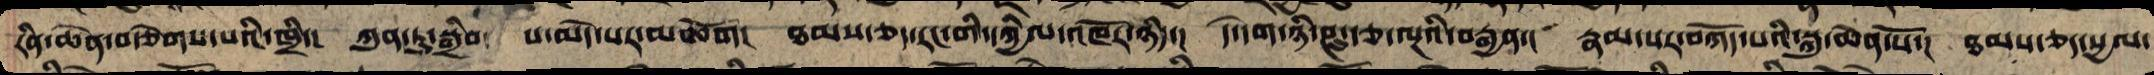རིན་ཆེན་བརྩེགས་པའི་ཁྲི་། ཀུན་ཏུ་སྒྲིབ་པ་མེད་པའི་མཆོག། ཐམས་ཅད་རང་གི་དཀྱིལ་འཁོར་ཉིད་། དེ་དག་ཉི་ཤུ་རྩ་ལྔའི་བརྒྱན་། རྣམ་པར་བཀོད་པའི་སྐུ་ཆེན་པོ་། ཐམས་ཅད་སྱལ་
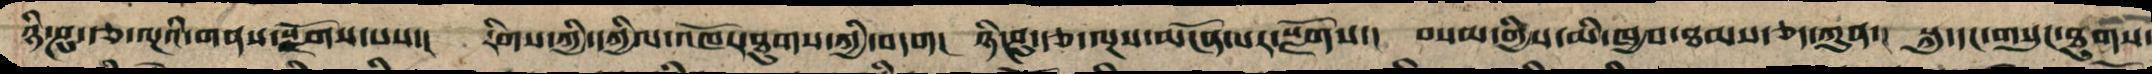ཉི་ཤུ་རྩ་ལྔའི་གནས་སྫོགས་པས་། རིགས་ཀྱི་དཀྱིལ་འཁོར་ཐུགས་ཀྱི་བདག། ཉི་ཤུ་རྩ་ལྔས་མངོན་པར་སྫོགས་། བསམ་གྱིས་མི་ཁྱབ་ཐམས་ཅད་ཀུན་། སྐུ་དང་གསུང་ཐུགས་
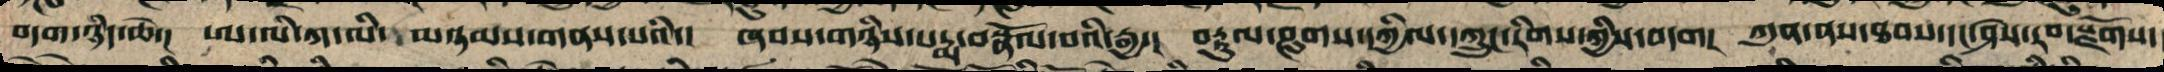བདག་ཉིད་ཆེ་། ཨ་ལི་ཀ་ལི་   མཉམས་གནས་པའི་། ཞབས་གཉིས་པདྨ་བསྣོལ་བའི་རྒྱ་། བརྟུལ་ཤུགས་དཀྱིལ་དཀྲུང་རིགས་ཀྱིས་བདག། ཀུན་ནས་ཐབས་དང་ཤེས་རབ་སྫོགས་
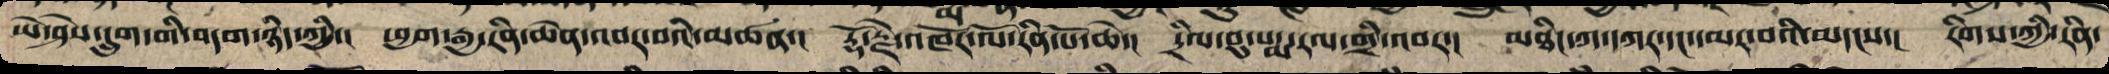ཡེ་ཤེས་དྲུག་གི་བདག་ཉིད་ཀྱི་། ཕྱག་རྒྱ་རིན་ཆེན་འབར་བའི་མཚན་། རྡོ་རྗེ་འཁོར་ལོ་རིན་པོ་ཆེ་། དྲིལ་བུ་པདྨ་རལ་གྲི་འབར་། མཐིང་ཀ་དཀར་དང་དམར་བའི་མདངས་། རིགས་ཀྱི་རིན་
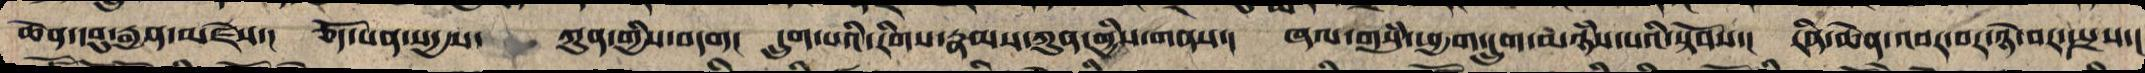ཆེན་དབུ་རྒྱན་མཛེས་། ཅོད་པན་སདྱས་  ཀུན་གྱིས་བདག།  དྲུག་པའི་རིགས་རྣམས་ཀུན་གྱི་གནས་། ཞལ་གསུཾ་ཕྱག་དྲུག་མཉཾས་པའི་སྟོབས་། རིན་ཆེན་འབར་བར་ཉེ་བར་སྤྲས་།
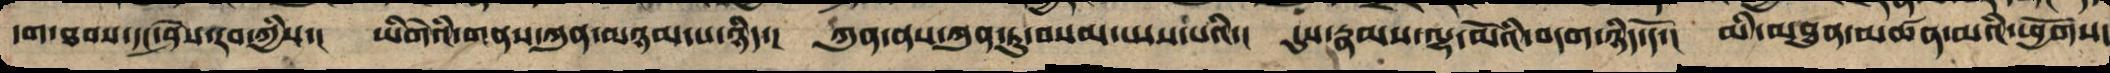དག་ཐབས་དང་ཤེས་རབ་ཀྱིས་། ཡི་གེའི་གནས་ཀུན་མཉམ་པ་ཉིད་། ཀུན་ནས་ཀུན་ཏུ་བསམ་ཡས་པའི་། དུས་རྣམས་ལྷ་མོའི་བདག་ཉིད་དོ་། མི་མཐུན་མཚན་མའི་ཕྱོགས་
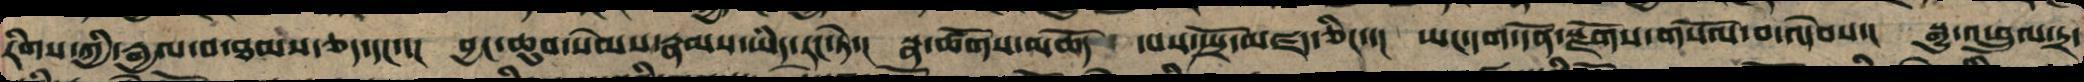རིགས་ཀྱི་རྒྱལ་བ་ཐམས་ཅད་དང་་། བྱང་ཆུབ་སེམས་རྣམས་ཡི་རང་ཏེ་། སྣ་ཚོགས་མཆོད་པས་སྤྲོ་མཛད་ཅིང་་། ཡང་དག་དོན་སྫོགས་གསོལ་བ་འདེབས་། སྒྱུ་འཕྲུལ་དྲ་
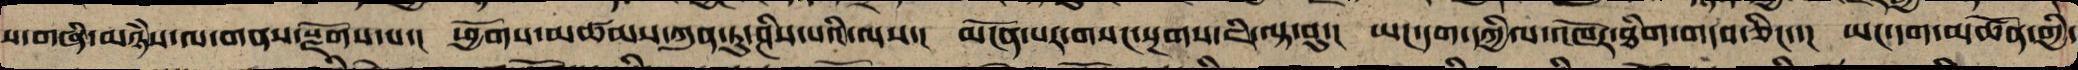ས་གཞི་མཉཾས་ལ་གནས་སྫོགས་པ་། ཕྱོགས་མཚམས་ཀུན་ཏུ་ཤིས་པའི་ལས་། མངོན་པར་གསང་སྔགས་ཇི་ལྟ་བུ་། ཡང་དག་དཀྱིལ་འཁོར་ཐིག་གདབ་ཅིང་་། ཡང་དག་མཚོན་གྱི་
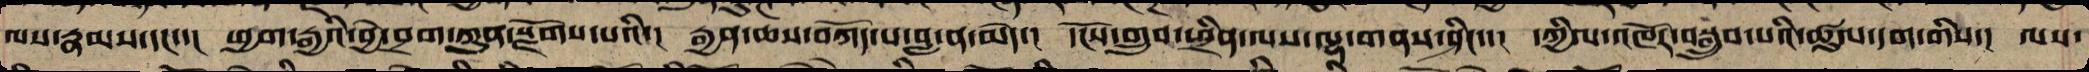ལས་རྣམས་དང་་། ཕྱག་རྒྱའི་བྱེ་བྲག་ཀུན་སྫོགས་པའི་། རྒྱན་ཆས་བཀོད་པ་བླ་ན་མེད་། དངོས་གྲུབ་ཕྲིན་ལས་ལྷ་གནས་ཤིང་་། དཀྱིལ་འཁོར་བསྒྲུབ་པའི་ཚུལ་དག་གིས་། ལས་
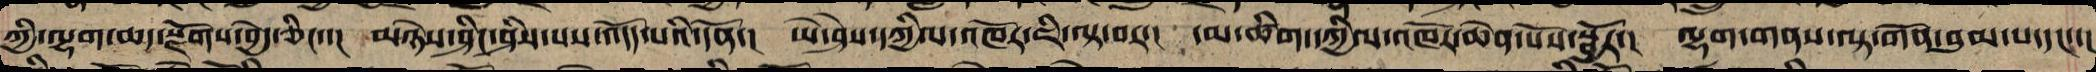ཀྱི་ལྷག་ཆད་སྫོགས་བྱེད་ཅིང་་། མཉེས་ཤིང་ཤིས་པས་འདོད་པའི་དོན་། ཡེ་ཤེས་དཀྱིལ་འཁོར་ཇི་ལྟ་བར་། དམ་ཚིག་དཀྱིལ་འཁོར་ཆེན་པོས་སྦྱོར་། ལྷག་གནས་སྟ་གོན་བུམ་པ་དང་་།
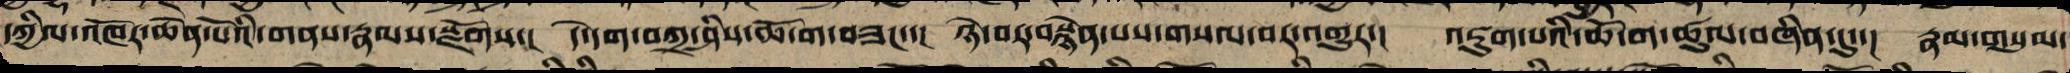དཀྱིལ་འཁོར་ཆེན་པོའི་གནས་རྣམས་སྫོགས་། དེ་དག་བཀྲ་ཤིས་ཆོ་ག་བཟང་་། ཉེ་བར་བསྙེན་པས་གསལ་བར་འགྱུར་། འཇུག་པའི་ཆོ་ག་ཚུལ་བཞིན་དུ་་། རྣམ་གསུམ་
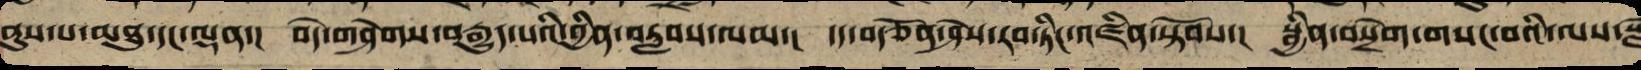ནུས་པ་མཐུ་དང་ལྡན་། བདེ་གཤེགས་བརྒྱུད་པའི་བྱིན་རླབས་ལམ་། དད་བརྩོན་ཤེས་རབ་ཏིང་འཛིན་སྟོབས་། སྦྱིན་བསྲེགས་གསང་བའི་ལས་སྫོ
